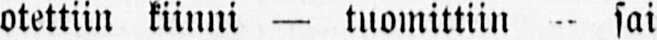otettiin kiinni — tuomittiin — sai
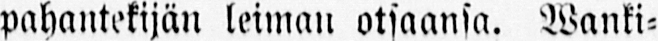pahantekijän leiman otsaansa. Wanki-
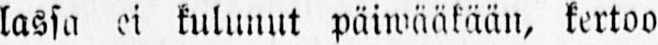lassa ei kulunut päiwääkään, kertoo
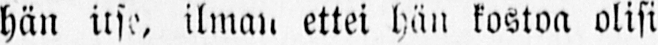hän itse, ilman ettei hän kostoa olisi
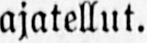ajatellut.
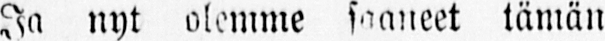Ja nyt olemme saaneet tämän
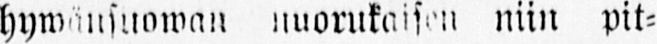hywänsuowan nuorukaisen niin pit-
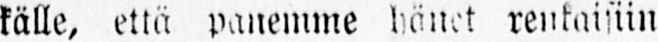källe, että panemme hänet renkaisiin
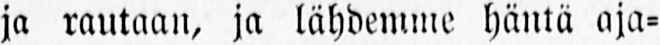ja rautaan, ja lähdemme häntä aja-
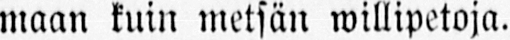maan kuin metsän willipetoja.
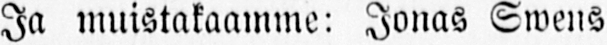Ja muistakaamme: Jonas Swens-
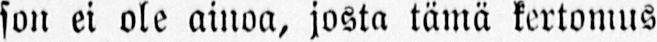son ei ole ainoa, josta tämä kertomus
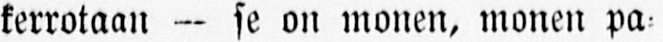kerrotaan — se on monen, monen pa-
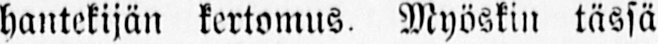hantekijän kertomus. Myöskin tässä
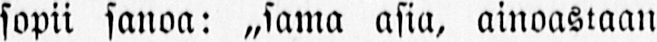sopii sanoa: „sama asia, ainoastaan
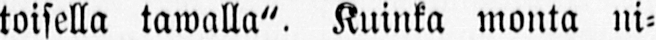toisella tawalla". Kuinka monta ni-
